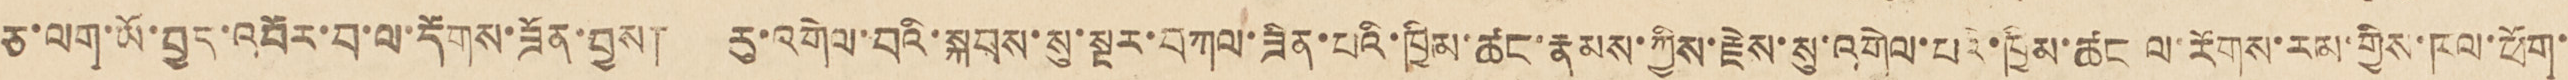ཅ་ལག་ཡོ་བྱད་འབོར་བ་ལ་དོགས་ཟོན་བྱས། རུ་འགེལ་བའི་སྐབས་སུ་སྔར་བཀལ་ཟིན་པའི་ཁྱིམ་ཚང་རྣམས་ཀྱིས་རྗེས་སུ་འགེལ་པའི་ཁྱིམ་ཚང ལ་རོགས་རམ་གྱིས་ཁལ་ཕོག་
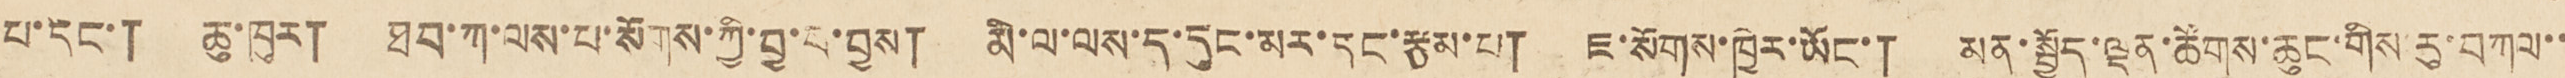པ་དང་། ཆུ་ཁུར། ཐབ་ཀ་ལས་པ་སོགས་ཀྱི་བྱ་བ་བྱས། མི་ལ་ལས་ད་དུང་མར་དང་རྩམ་པ། ཇ་སོགས་ཁྱེར་ཡོང་། མན་སྤྱོད་ལྡན་ཚོགས་ཆུང་གིས་རུ་བཀལ་་
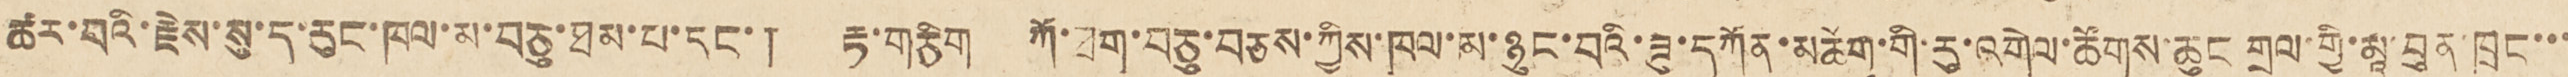ཚར་བའི་རྗེས་སུ་ད་རུང་ཁལ་མ་བཅུ་ཐམ་པ་དང་། རྟ་གཅིག ཀོ་ཐག་བཅུ་བཅས་ཀྱིས་ཁལ་མ་ཉུང་བའི་ཟུ་དཀོན་མཆོག་གི་རུ་འགེལ་ཚོགས་ཆུང གྲལ་གྱི་མཱ་བུན་ཁྲང་་་
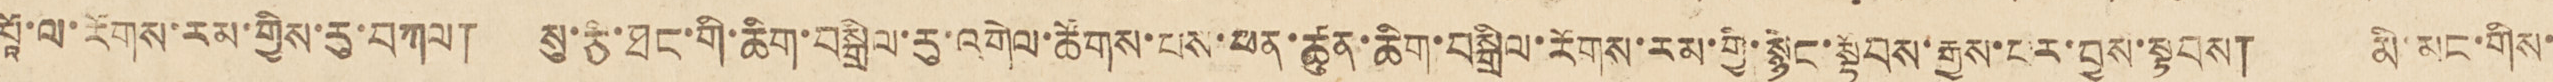པཱོ་ལ་རོགས་རམ་གྱིས་རུ་བཀལ། སུ་ཅི་ཐང་གི་ཆིག་བསྒྲིལ་རུ་འགེལ་ཚོགས་པས་ཕན་ཚུན་ཆིག་བསྒྲིལ་རོགས་རམ་གྱི་སྙིང་སྟོབས་རྒྱས་པར་བྱས་སྟབས། མི་མང་གིས་
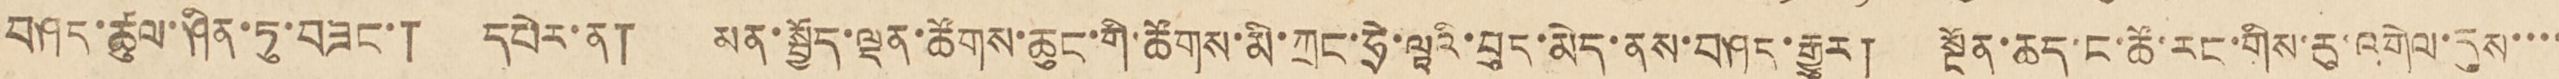བཤད་ཚུལ་ཤིན་ཏུ་བཟང་། དཔེར་ན། མན་སྤྱོད་ལྡན་ཚོགས་ཆུང་གི་ཚོགས་མི་ཀྲང་ཧྲེ་ལཱའི་བུད་མེད་ནས་བཤད་རྒྱུར། སྔོན་ཆད་ང་ཚོ་རང་གིས་རུ་འགེལ་དུས་་་་
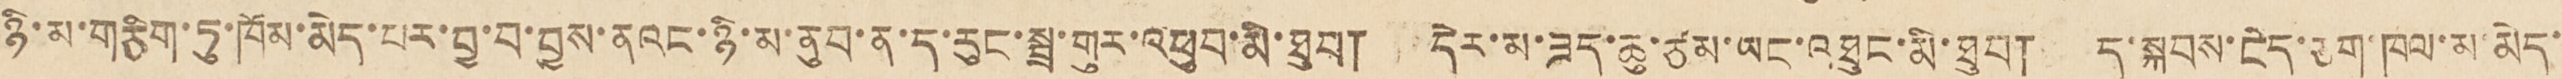ཉི་མ་གཅིག་ཏུ་ཁོམ་མེད་པར་བྱ་བ་བྱས་ནའང་ཉི་མ་ནུབ་ན་ད་རུང་སྦྲ་གུར་བཕུབ་མི་ཐུབ། དིར་མ་ཟད་ཆུ་ཙམ་ཡང་འཐུང་མི་ཐུབ། ད་སྐབས་ངེད་ཅག་ཁལ་མ མེད་
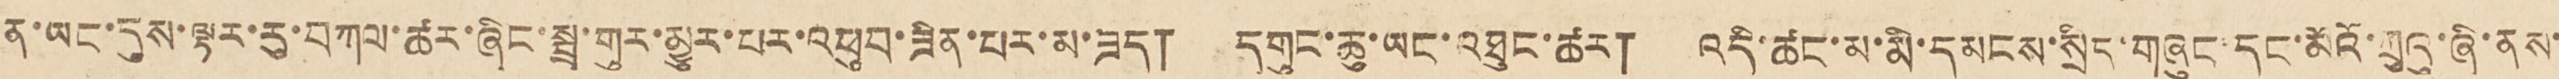ན་ཡང་དུས་ལྟར་རུ་བཀལ་ཚར་ཞིང་སྦྲ་གུར་མྱུར་པར་འཕུབ་ཟིན་པར་མ་ཟད། དགུང་ཆུ་ཡང་འཐུང་ཚར། འདི་ཚང་མ་མི་དམངས་སྲིད་གཞུང་དང་མོའོ་ཀྲུའུ་ཞི་ནས་
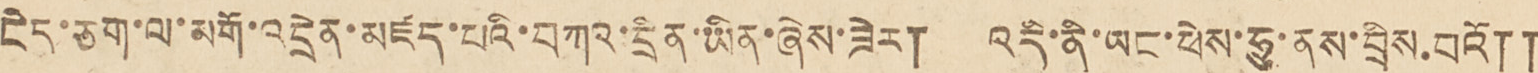ངེད་ཅག་ལ་མགོ་འདྲེན་མཛད་པའི་བཀའ་དྲིན་ཡིན་ཞེས་ཟེར། འདི་ནི་ཡང་ཕེས་ཧྲུ་ནས་བྲིས བའོ༎
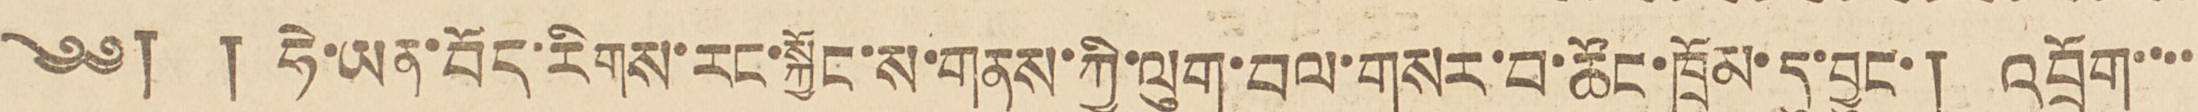༄༅། ། ཧེ་ཡན་བོད་རོགས་རང་སྐྱོང་ས་གནས་ཀྱི་ལུག་བལ་གསར་བ་ཚོང་ཁྲོམ་དུ་བྱུང་། འབྲོག་་་་
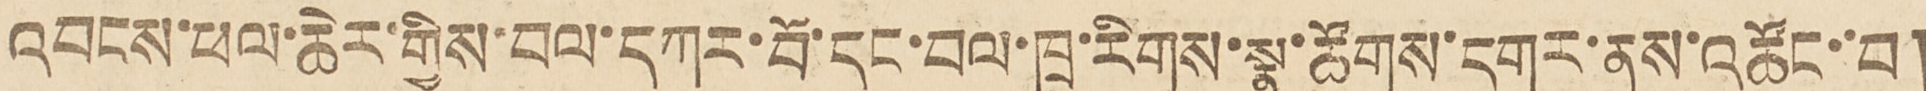འབངས་ཕལ་ཆེར་གྱིས་བལ་དཀར་བོ་དང་བལ་ཁྲ་རིགས་སྣ་ཚོགས་དགར་ནས་འཚོང་བ།
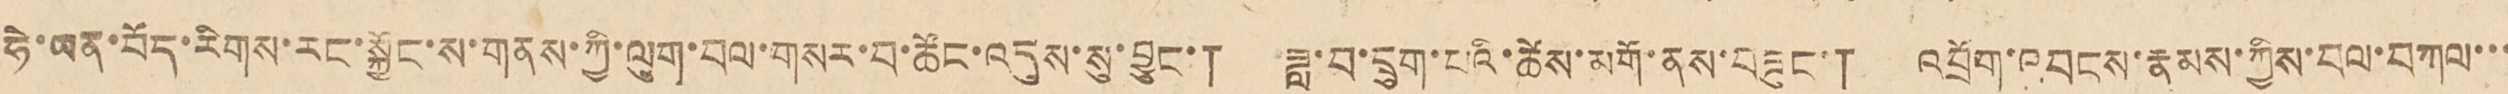ཧེ་ཡན་བོད་རིགས་རང་སྐྱོང་ས་གནས་ཀྱི་ལུག་བལ་གསར་བ་ཚོང་འདུས་སུ་བྱུང་། ཟླ་བ་དྲུག་པའི་ཚེས་མགོ་ནས་བཟུང་། འབྲོག་འབངས་རྣམས་ཀྱིས་བལ་བཀལ་་་
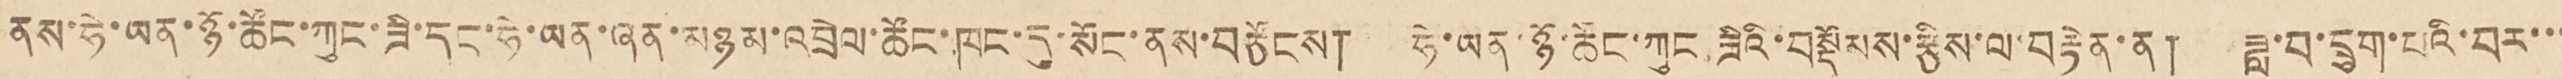ནས་ཧེ་ཡན་ཉོ་ཚོང་ཀུང་ཟི་དང་ཧེ་ཡན་ཞན་མཉམ་འབྲེལ་ཚོང་ཁང་དུ་སོང་ནས་བཅོངས། ཧེ་ཡན་ཉོ་ཚོང་ཀུང་ཟིའི་བསྡོམས་རྩིས་ལ་བརྟེན་ན། ཟླ་བ་དྲུག་པའི་བར་་་
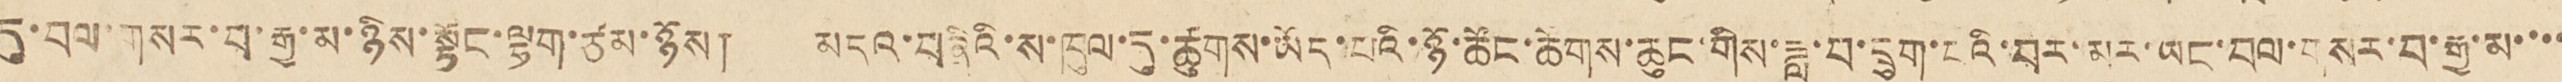དུ་བལ་གསར་བ་རྒྱ་མ་ཉིས་སྟོང་ལྷག་ཙམ་ཉོས། མདའ་བཞིའི་ས་ཁུལ་དུ་ཚུགས་ཡོད་པའི་ཉོ་ཚོང་ཆོགས་ཆུང་གིས་ཟླ་བ་དྲུག་པའི་བར་མར་ཡང་བལ་གསར་བ་རྒྱ་མ་་་་
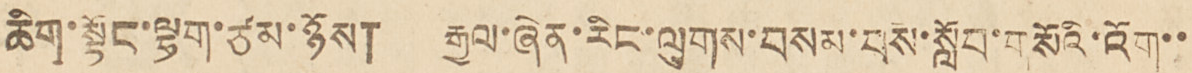ཆིག་སྟོང་ལྷག་ཙམ་ཉོས། རྒྱལ་ཞེན་རིང་ལུགས་བསམ་པས་སློབ་གསོའི་འོག་་
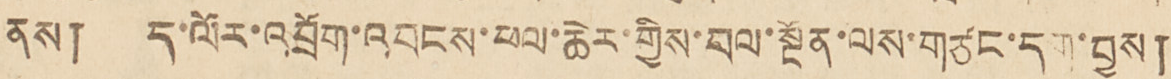ནས། ད་ལོར་འབྲོག་འབངས་ཕལ་ཆེར་གྱིས་བལ་སྔོན་ལས་གཙང་དག་བྱས།
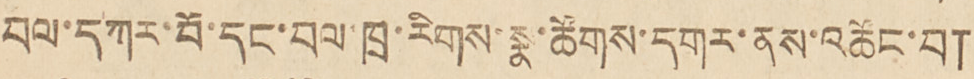བལ་དཀར་པོ་དང་བལ་ཁྲ་རིགས་སྣ་ཚོགས་དགར་ནས་འཚོང་བ།
